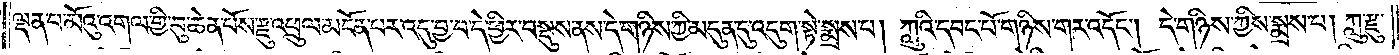ལྡན་པ་མོའུ་འགལ་གྱི་བུ་ཆེན་པོས་རྫུ་འཕྲུལ་མངོན་པར་འདུ་བྱ་བ་དེ་ཕྱིར་བསྡུས་ནས་དེ་གཉིས་ཀྱི་མདུན་དུ་འདུག་སྟེ་སྨྲས་པ། ཀླུའི་དབང་པོ་གཉིས་གར་འདོང༌། དེ་གཉིས་ཀྱིས་སྨྲས་པ། ཀླུ་རྫུ་
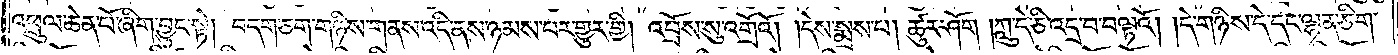འཕྲུལ་ཆེན་པོ་ཞིག་བྱུང་སྟེ། བདག་ཅག་གཉིས་གནས་འདི་ནས་ཉམས་པར་གྱུར་གྱི། འབྲོས་སུ་འགྲོའོ། །དེས་སྨྲས་པ། ཚུར་ཤོག །ཀླུ་དེ་ཅི་འདྲ་བ་བལྟའོ། །དེ་གཉིས་དེ་དང་ལྷན་ཅིག་
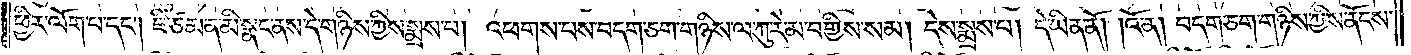ཕྱིར་ལོག་པ་དང༌། ཇི་ཙམ་ན་མི་སྣང་ནས་དེ་གཉིས་ཀྱིས་སྨྲས་པ། འཕགས་པས་བདག་ཅག་གཉིས་ལ་ཀུ་རེ་མ་བགྱིས་སམ། དེས་སྨྲས་པ། དེ་ཡིན་ནོ། །འོ་ན། བདག་ཅག་གཉིས་ཀྱིས་ནོངས་
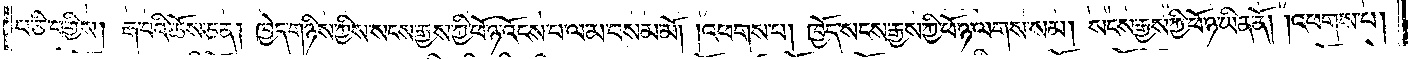པ་ཅི་བགྱིས། རྒ་བའི་ཆོས་ཅན། ཁྱེད་གཉིས་ཀྱིས་སངས་རྒྱས་ཀྱི་ཕོ་ཉ་འོངས་པ་ལ་མ་བསམ་མོ། །འཕགས་པ། ཁྱོད་སངས་རྒྱས་ཀྱི་ཕོ་ཉ་ལགས་སམ། སངས་རྒྱས་ཀྱི་ཕོ་ཉ་ཡིན་ནོ། །འཕགས་པ།
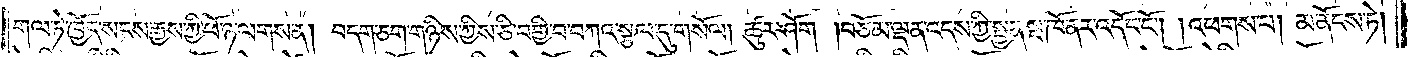གལ་ཏེ་ཁྱོད་སངས་རྒྱས་ཀྱི་ཕོ་ཉ་ལགས་ན། བདག་ཅག་གཉིས་ཀྱིས་ཅི་བགྱི་བ་བཀའ་སྩལ་དུ་གསོལ། ཚུར་ཤོག །བཅོམ་ལྡན་འདས་ཀྱི་སྤྱན་སྔ་ཁོ་ནར་འདོང་ངོ༌། །འཕགས་པ། མ་ནོངས་ཏེ།
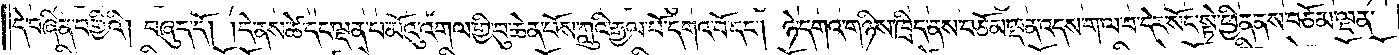དེ་བཞིན་བགྱིའི། །བཞུད་དོ། །དེ་ནས་ཚེ་དང་ལྡན་པ་མོའུ་འགལ་གྱི་བུ་ཆེན་པོས་ཀླུའི་རྒྱལ་པོ་དགའ་བོ་དང༌། ཉེ་དགའ་གཉིས་ཁྲིད་ནས་བཅོམ་ལྡན་འདས་ག་ལ་བ་དེར་སོང་སྟེ་ཕྱིན་ནས་བཅོམ་ལྡན་
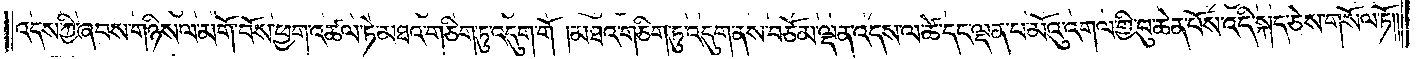འདས་ཀྱི་ཞབས་གཉིས་ལ་མགོ་བོས་ཕྱག་འཚལ་ཏེ་མཐའ་གཅིག་ཏུ་འདུག་གོ །མཐའ་གཅིག་ཏུ་འདུག་ནས་བཅོམ་ལྡན་འདས་ལ་ཚེ་དང་ལྡན་པ་མོའུ་འགལ་གྱི་བུ་ཆེན་པོས་འདི་སྐད་ཅེས་གསོལ་ཏོ།
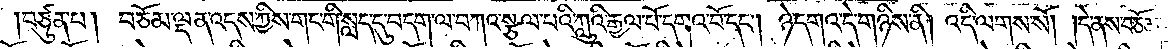།བཙུན་པ། བཅོམ་ལྡན་འདས་ཀྱིས་གང་གི་སླད་དུ་བདག་ལ་བཀའ་སྩལ་པའི་ཀླུའི་རྒྱལ་པོ་དགའ་བོ་དང༌། ཉེ་དགའ་དེ་གཉིས་ནི། འདི་ལགས་སོ། །དེ་ནས་བཅོམ་
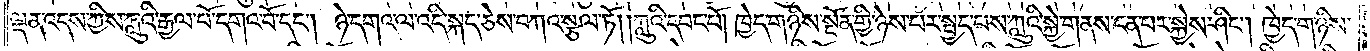ལྡན་འདས་ཀྱིས་ཀླུའི་རྒྱལ་པོ་དགའ་བོ་དང༌། ཉེ་དགའ་ལ་འདི་སྐད་ཅེས་བཀའ་སྩལ་ཏོ། །ཀླུའི་དབང་པོ། ཁྱེད་གཉིས་སྔོན་གྱི་ཉེས་པར་སྤྱད་པས་ཀླུའི་སྐྱེ་གནས་ངན་པར་སྐྱེས་ཤིང༌། ཁྱེད་གཉིས་
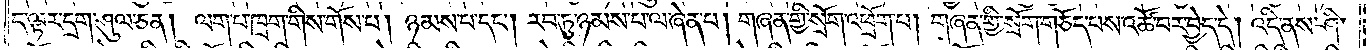ད་ལྟར་དྲག་ཤུལ་ཅན། ལག་པ་ཁྲག་གིས་གོས་པ། ཉམས་པ་དང༌། རབ་ཏུ་ཉམས་པ་ལ་ཞེན་པ། གཞན་གྱི་སྲོག་འཕྲོག་པ། གཞན་གྱི་སྲོག་གཅོད་པས་འཚོ་བར་བྱེད་དེ། འདི་ནས་ཤི་
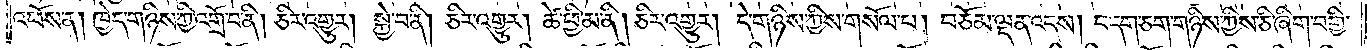འཕོས་ན། ཁྱེད་གཉིས་ཀྱི་འགྲོ་བ་ནི། ཅིར་འགྱུར། སྐྱེ་བ་ནི། ཅིར་འགྱུར། ཚེ་ཕྱི་མ་ནི། ཅིར་འགྱུར། དེ་གཉིས་ཀྱིས་གསོལ་པ། བཅོམ་ལྡན་འདས། བདག་ཅག་གཉིས་ཀྱིས་ཅི་ཞིག་བགྱི་
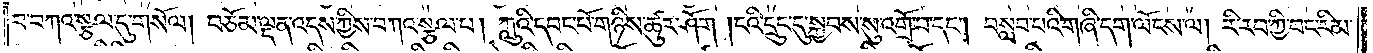བ་བཀའ་སྩལ་དུ་གསོལ། བཅོམ་ལྡན་འདས་ཀྱིས་བཀའ་སྩལ་པ། ཀླུའི་དབང་པོ་གཉིས་ཚུར་ཤོག །ངའི་དྲུང་དུ་སྐྱབས་སུ་འགྲོ་བ་དང༌། བསླབ་པའི་གཞི་དག་ལོངས་ལ། རི་རབ་ཀྱི་བང་རིམ་
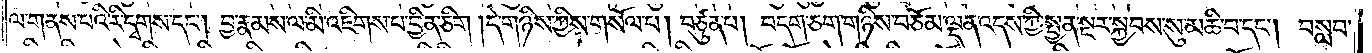ལ་གནས་པའི་རི་དྭགས་དང༌། བྱ་རྣམས་ལ་མི་འཇིགས་པ་བྱིན་ཅིག །དེ་གཉིས་ཀྱིས་གསོལ་པ། བཙུན་པ། བདག་ཅག་གཉིས་བཅོམ་ལྡན་འདས་ཀྱི་སྤྱན་སྔར་སྐྱབས་སུ་མཆི་བ་དང༌། བསླབ་
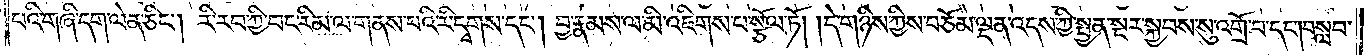པའི་གཞི་དག་ལེན་ཅིང༌། རི་རབ་ཀྱི་བང་རིམ་ལ་གནས་པའི་རི་དྭགས་དང༌། བྱ་རྣམས་ལ་མི་འཇིགས་བ་སྩོལ་ཏོ། །དེ་གཉིས་ཀྱིས་བཅོམ་ལྡན་འདས་ཀྱི་སྤྱན་སྔར་སྐྱབས་སུ་འགྲོ་བ་དང༌། བསླབ་
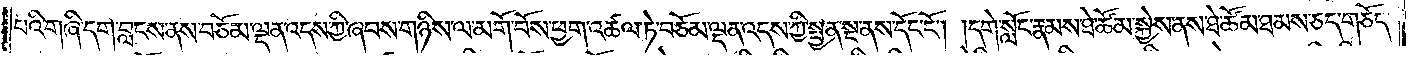པའི་གཞི་དག་བླངས་ནས་བཅོམ་ལྡན་འདས་ཀྱི་ཞབས་གཉིས་ལ་མགོ་བོས་ཕྱག་འཚལ་ཏེ་བཅོམ་ལྡན་འདས་ཀྱི་སྤྱན་སྔ་ནས་དོང་ངོ༌། །དགེ་སློང་རྣམས་ཐེ་ཚོམ་སྐྱེས་ནས་ཐེ་ཚོམ་ཐམས་ཅད་གཅོད་
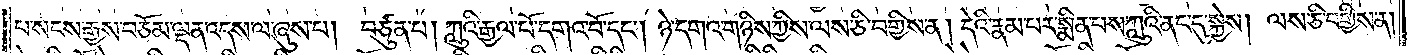པ་སངས་རྒྱས་བཅོམ་ལྡན་འདས་ལ་ཞུས་པ། བཙུན་པ། ཀླུའི་རྒྱལ་པོ་དགའ་བོ་དང༌། ཉེ་དགའ་གཉིས་ཀྱིས་ལས་ཅི་བགྱིས་ན། དེའི་རྣམ་པར་སྨིན་པས་ཀླུའི་ནང་དུ་སྐྱེས། ལས་ཅི་བགྱིས་ན།
